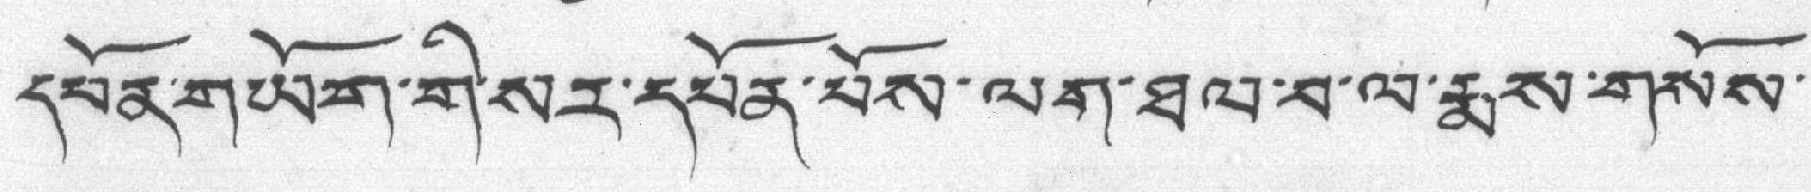དཔོན་གཡོག་གི་སར་དཔོན་པོས་ལག་ཐལ་བ་ལ་རྨས་གསོས་
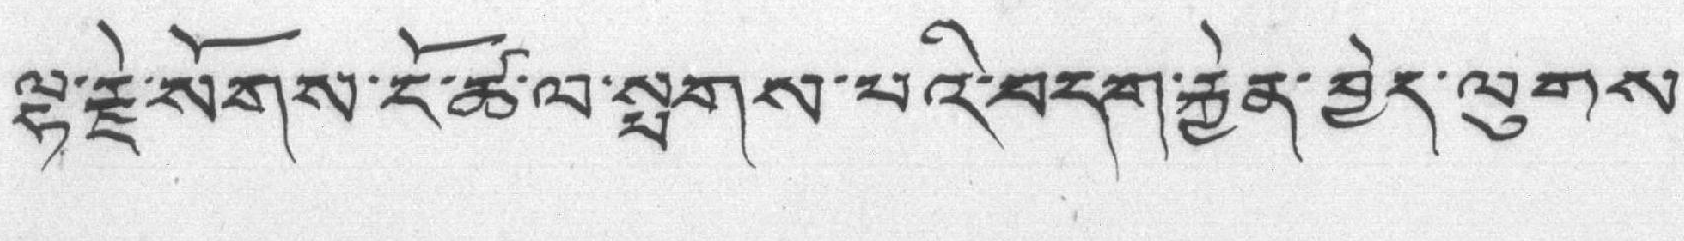ལྷ་རྗེ་སོགས་ངོ་ཚ་ལ་སྤགས་པའི་བདག་རྐྱེན་བྱེད་ལུགས་
